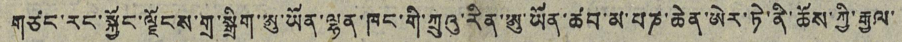གཙང་རང་སྐྱོང་ལྗོངས་གྲ་སྒྲིག་ཨུ་ཡོན་ལྷན་ཁང་གི་ཀྲུའུ་རིན་ཨུ་ཡོན་ཚབ་མ་པཎ་ཆེན་ཨེར་ཏེ་ནི་ཆོས་ཀྱི་རྒྱལ་
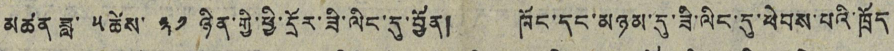མཚན ཟླ་ ༥ཚེས་ ༣༡ ཉིན་གྱི་ཕྱི་དྲོར་ཟི་ལིང་དུ་བྱིན། ཁོང་དང་མཉམ་དུ་ཟི་ལིང་དུ་ཕེབས་པའི་ཁྲོད
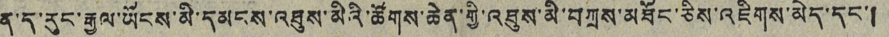ན་ད་རུང་རྒྱལ་ཡོངས་མི་དམངས་འཐུས་མིའི་ཚོགས་ཆེན་གྱི་འཐུས་མི་བཀྲས་མཐོང་ཅིས་འཇིགས་མེད་དང་།
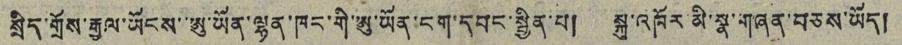སྲིད་གྲོས་རྒྱལ་ཡོངས་་ཨུ་ཡོན་ལྷན་ཁང་གི་ཨུ་ཡོན་ངག་དབང་སྦྱིན་པ། སྐུ་འཁོར་མི་སྣ་གཞན་བཅས་ཡོད།
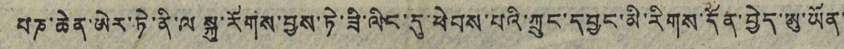པཎ་ཆེན་ཨེར་ཏེ་ནི་ལ སྐུ་རོགས་བྱས་ཏེ་ཟི་ལིང་དུ་ཕེབས་པའི་ཀྲུང་དབྱང་མི་རིགས་དོན་བྱེད་ཨུ་ཡོན་
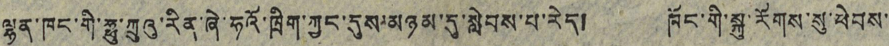ལྷན་ཁང་གི་ཧྥུ་ཀྲུའུ་རིན་ཞེ་ཧའོ་ཁྲིག་ཀྱང་དུས་མཉམ་དུ་སླེབས་པ་རེད། ཁོང་གི་སྐུ་རོགས་སུ་ཕེབས་
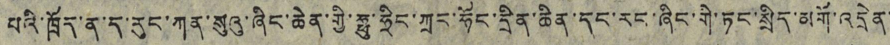པའི་ཁྲོད་ན་ད་རུང་ཀན་སུའུ་ཞིང་ཆེན་གྱི་ཧྥུ་ཧྥིང་ཀྲང་ཧོང་དྲིན་ཆིན་དང་རང་ཞིང་གི་ཏང་སྲིད་མགོ་འདྲེན་
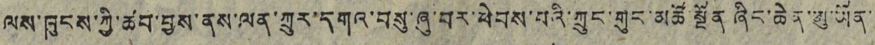ལས་ཁུངས་ཀྱི་ཚབ་བྱས་ནས་ལན་ཀྲུར་དགའ་བསུ་ཞུ་བར་ཕེབས་པའི་ཀྲུང་གུང་མཚོ་སྔོན ཞིང་ཆེན་ཨུ་ཡོན་་
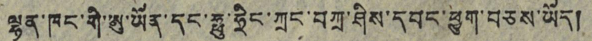ལྷན་ཁང་གི་ཨུ་ཡོན་དང་ཧྥུ་ཧྥིང་ཀྲང་བཀྲ་ཤིས་དབང་ཕྱུག་བཅས་ཡོད།
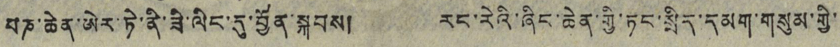པཎ་ཆེན་ཨེར་ཏེ་ནི་ཟི་ལིང་དུ་བྱོན་སྐབས། རང་རེའི་ཞིང་ཆེན་གྱི་ཏང་སྲིད་དམག་གསུམ་གྱི་
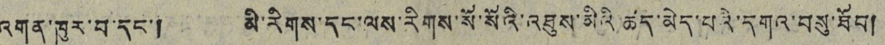འགན་ཁུར་བ་དང་། མི་རིགས་དང་ལས་རིགས་སོ་སོའི་འཐུས་མིའི་ཚད་མེད་པའི་དགའ་བསུ་ཐོབ།
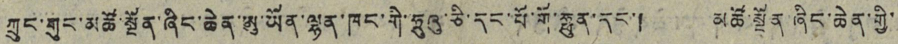ཀྲུང་གུང་མཚོ་སྔོན་ཞིང་ཆེན་ཨུ་ཡོན་ལྷན་ཁང་གི་ཧྲུའུ་ཅི་དང་པོ་གོ་ཧྥུན་དང་། མཚོ་སྔོན་ཞིང་ཆེན་གྱི་
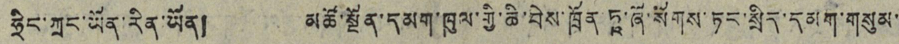ཧྲིང་ཀྲང་ཡོན་རིན་ཡོན། མཚོ་སྔོན་དམག་ཁུལ་གྱི་ཆི་བེས་ཁྲོན་ཏཱ་ཞོ་སོགས་ཏང་སྲིད་དམག་གསུམ་
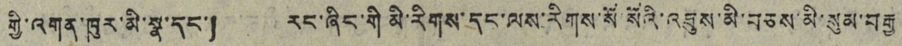གྱི་འགན་ཁུར་མི་སྣ་དང་། རང་ཞིང་གི མི་རིགས་དང་ལས་རིགས་སོ་སོའི་འཐུས་མི་བཅས་མི་སུམ་བརྒྱ
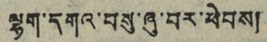ལྷག་དགའ་བསུ་ཞུ་བར་ཕེབས།
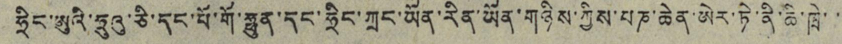ཧྲིང་ཨུའི་ཧྲུའུ་ཅི་དང་པོ་གོ་ཧྥུན་དང་ཧྲིང་ཀྲང་ཡོན་རིན་ཡོན་གཉིས་ཀྱིས་པཎ་ཆེན་ཨེར་ཏེ་ནི་ཆི་ཁྲེ་་་
